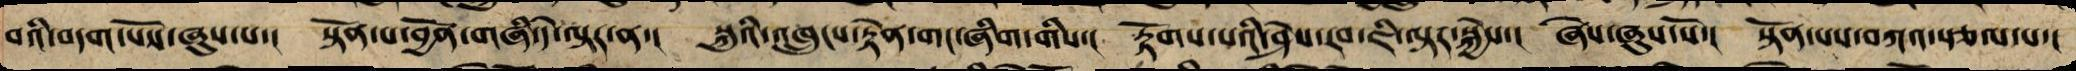བའི་བདག་པོས་ཞུས་པ་། སྟོན་པ་བྱོན་གཞི་དེ་ལྟར་ན་། སྐུའི་འཁྲུངས་རྟེན་གང་ཞིག་གིས་། རྟོགས་པའི་ཤེས་རབ་ཇི་ལྟར་སྐྱེས་། ཞེས་ཞུས་སོ་། སྟོན་པས་བཀའ་སྩལ་པ་།
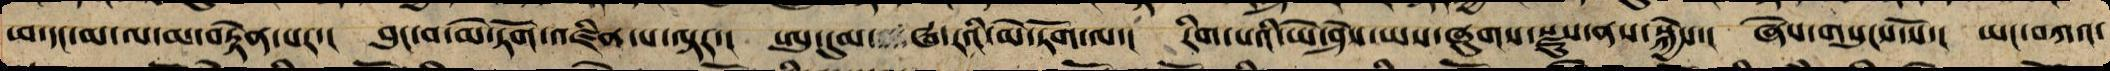ཕ་དང་མ་ལ་མ་བརྟེན་པར་། བུང་བ་མེ་ཏོག་འཛིན་པ་ལྟར་། ཨུ་དུམ་ ཝ་རའི་མེ་ཏོག་ལ་། རིག་པའི་ཡེ་ཤེས་ཡས་ཞུགས་སྫུས་ནས་སྐྱེས་། ཞེས་གསུངས་སོ་། ཡང་བཀའ་
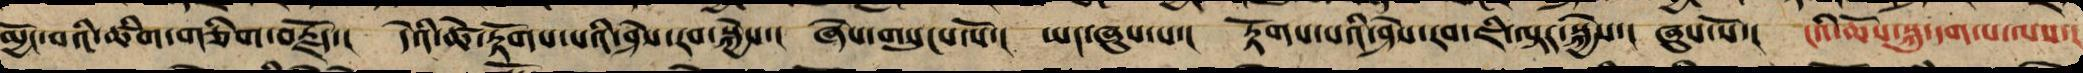མྱོང་བའི་ཚིག་གཅིག་བརྗོད་། དེའི་ཚེ་རྟོགས་པའི་ཤེས་རབ་སྐྱེས་། ཞེས་གསུངས་སོ་། ཡང་ཞུས་པ་། རྟོགས་པའི་ཤེས་རབ་ཇི་ལྟར་སྐྱེས་། ཞུས་སོ་། ངའི་ཆོས་སྐུ་དག་པ་ལས་།
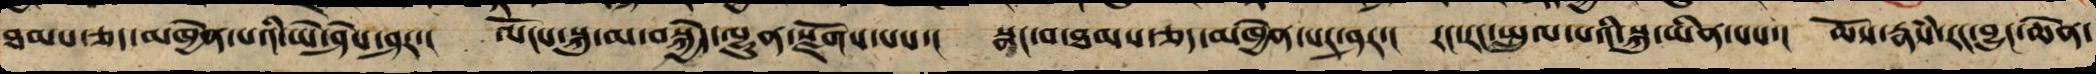ཐམས་ཅད་མཁྱེན་པའི་ཡེ་ཤེས་ཤར་། ལོངས་སྐུ་མ་བསྐྱེད་ལྷུན་སྫོགས་པས་། སྣང་བ་ཐམས་ཅད་མཁྱེན་པར་ཤར་། རང་རང་སྤྲུལ་པའི་སྐུ་ཡིན་པས་། ཆོས་རྣཾས་རང་བྱུང་ཆེན་
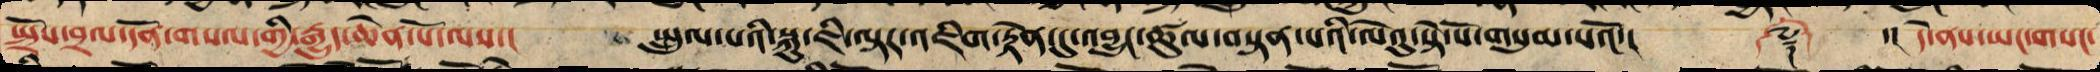སྤྲོས་བྲལ་དོན་གསལ་གྱི་རྒྱུད་ཆེན་པོ་ལས་། སྤྲུལ་པའི་སྐུ་ཇི་ལྟར་འཇིག་རྟེན་དུ་འབྱུང་ཚུལ་བསྟན་པའི་ལེའུ་སྟེ་སོ་གསུམ་པའོ་།། ༼༈༽ ་། དེ་ནས་ཡང་གསང་
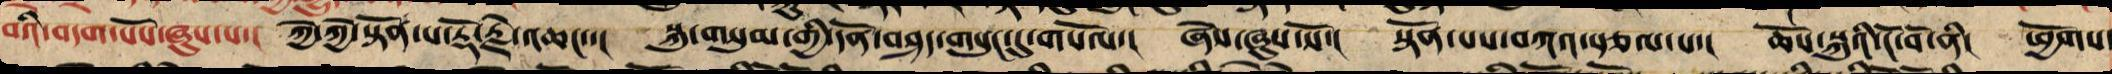བའི་བདག་པོས་ཞུས་པ་། ཀྱེ་ཀྱེ་སྟོན་པ་རྡོ་རྗེ་འཆང་་། སྐུ་གསུམ་གྱི་དོན་བཤད་གསུང་དུ་གསོལ་། ཞེས་ཞུས་སོ་། སྟོན་པས་བཀའ་སྩལ་པ་། ཆོས་སྐུའི་ངོ་བོ་ནི། ཕྱོགས་
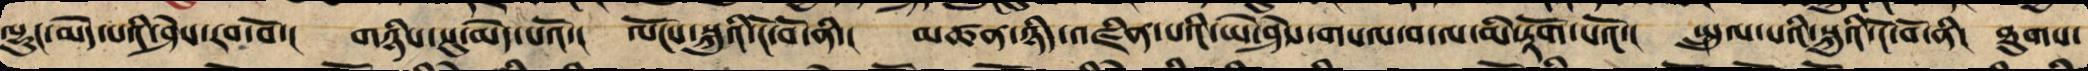ལྷུང་མེད་པའི་ཤེས་རབ་བོ་། གཉིས་སུ་མེད་པའོ་། ལོངས་སྐུའི་ངོ་བོ་ནི་། མཚན་ཉིད་འཛིན་པའི་ཡེ་ཤེས་གསལ་བ་ལ་མི་རྟོག་པའོ་། སྤྲུལ་པའི་སྐུའི་ངོ་བོ་ནི། ཐུགས་
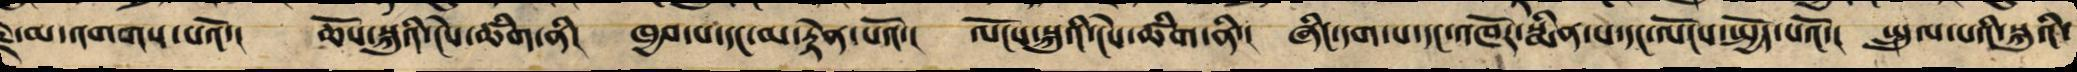རྗེ་མ་འགགས་པའོ་། ཆོས་སྐུའི་ངེས་ཚིག་ནི། ཁྱབ་པ་དང་མ་རྟེན་པའོ་། ལོངས་སྐུའི་ངེས་ཚིག་ནི་། ཞིང་དག་པ་དང་འཁོར་སྨིན་པ་དང་ལོངས་སྤྱོད་པའོ་། སྤྲུལ་པའི་སྐུའི་
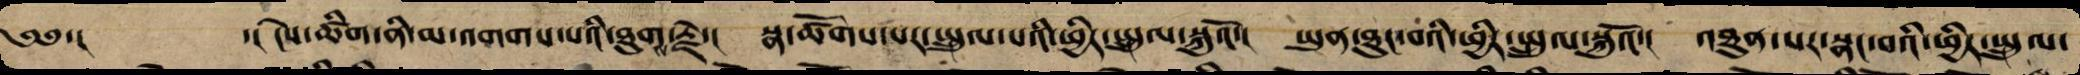༄༅་། ་། ངེས་ཚིག་ནི་མ་འགགས་པའི་ཐུགས་རྗེ་། སྣ་ཚོགས་པར་སྤྲུལ་པའི་ཕྱིར་སྤྲུལ་སྐུའོ་། ཡུན་ཐུང་བའི་ཕྱིར་སྤྲུལ་སྐུའོ་། འཐུན་པར་སྣང་བའི་ཕྱིར་སྤྲུལ་
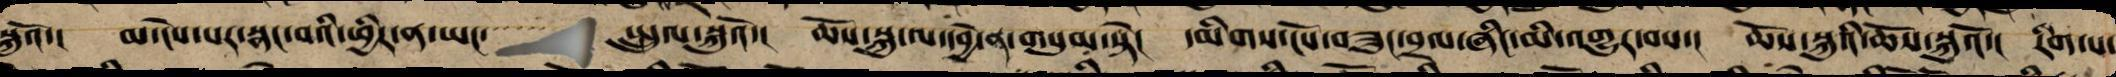སྐུའོ་། མ་ངེས་པར་སྣང་བའི་ཕྱིར་ན་ཡང་་་་་ སྤྲུལ་སྐུའོ་། ཆོས་སྐུ་ལ་དབྱེ་ན་གསུམ་སྟེ་། དམིགས་ངོས་བཟུང་བྲལ་ཞིང་མི་འགྱུར་བས་། ཆོས་སྐུའི་ཆོས་སྐུའོ་། རིག་པ་
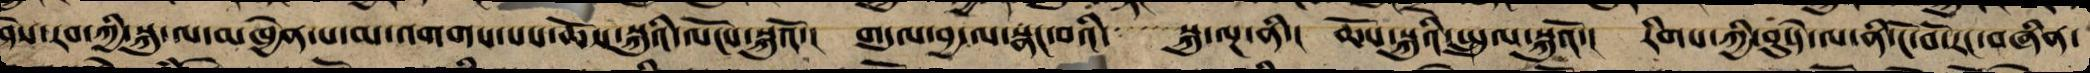ཤེས་རབ་ཀྱིས་སྐུ་ལ་མཁྱེན་པ་མ་འགགས་པས་ཆོས་སྐུའི་ལོངས་སྐུའོ་། གདུལ་བྱ་ལ་སྣང་བའི་་་་་སྐུ་ལྔ་ནི་། ཆོས་སྐུའི་སྤྲུལ་སྐུའོ་། རིགས་ཀྱི་བུ་དེ་ལ་ནི་ངོ་བོ་རང་བཞིན་
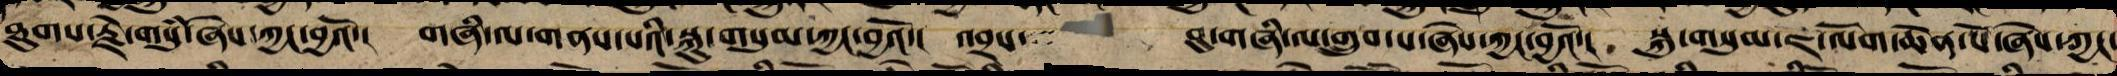ཐུགས་རྗེ་གསུཾ་ཞེས་ཀྱང་བྱའོ་། གཞི་ལ་གནས་པའི་སྐུ་གསུམ་ཀྱང་བྱའོ་། འབྲས་ བུ་གཞི་ལ་གྲུབ་པ་ཞེས་ཀྱང་བྱའོ་། སྐུ་གསུམ་ཇ་ལོག་ཆེན་པོ་ཞེས་ཀྱང་
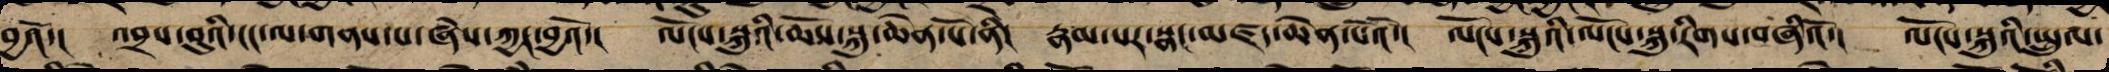བྱའོ་། འབྲས་བུའི་ངང་ལ་གནས་པ་ཞེས་ཀྱང་བྱའོ་། ལོངས་སྐུའི་ཆོས་སྐུ་ཆེན་པོ་ནི། རྣམ་པར་སྣང་མཛད་ཆེན་པོའོ་། ལོངས་སྐུའི་ལོངས་སྐུ་རིགས་བཞིའོ་། ལོངས་སྐུའི་སྤྲུལ་
